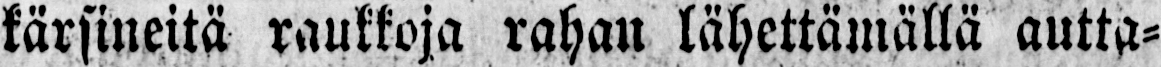kärsineitä raukkoja rahan lähettämättä autta-
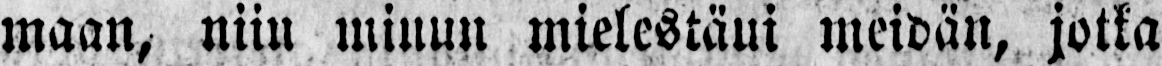maan, niin minun mielestäui meidän, jotka
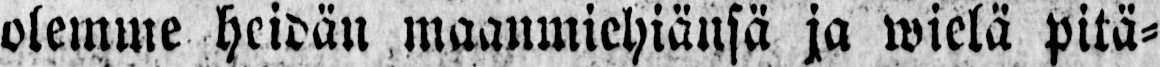olemme heidän maanmiehiänsä ja wielä pitä-
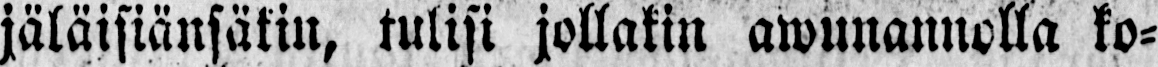jäläisiänsäkin, tulisi jollakin awunannolla ko-
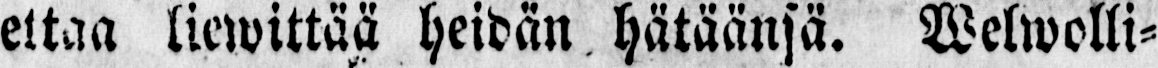ettaa liewittää heidän hätäänsä. Welwolli-
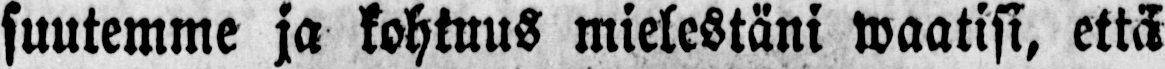suutemme ja kohtuus mielestäni waatisi, että
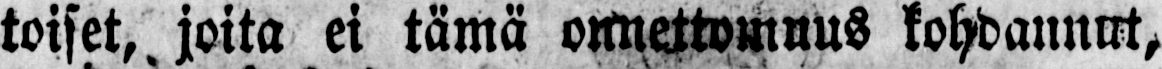toiset,, joita ei tämä onnettomuus kohdannut,
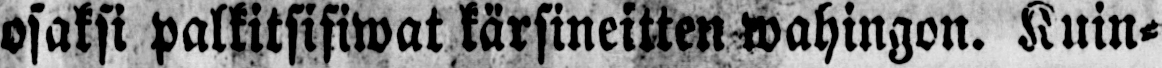osaksi palkitsisiwat kärsineitten wahingon. Kuin-
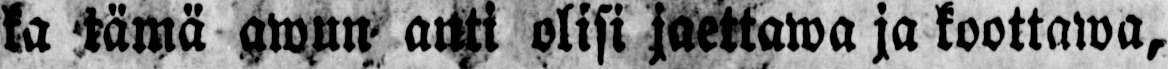ka tämä awun- anti olisi jaettawa ja koottawa,
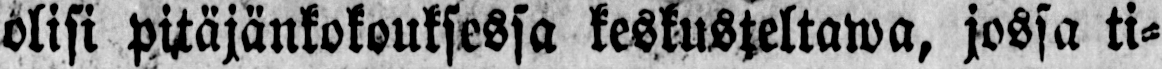olisi pitäjänkokouksessa keskusteltawa, jossa ti-
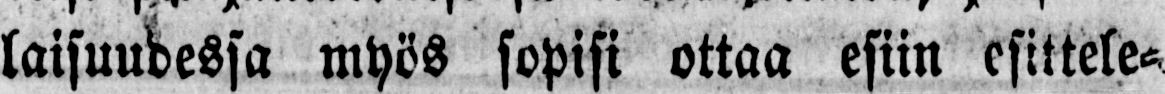laisuudessa myös sopisi ottaa esiin esittele-
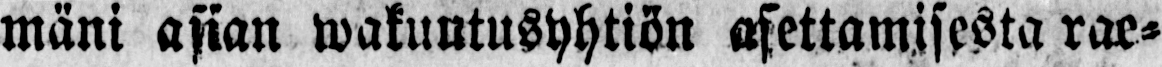mäni asian wakuutusyhtiön asettamisesta rae-
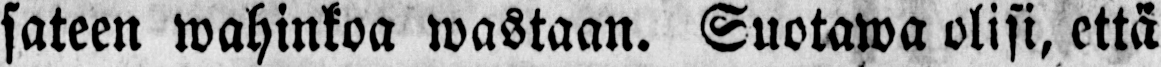sateen wahinkoa wastaan. Suotawa olisi, että
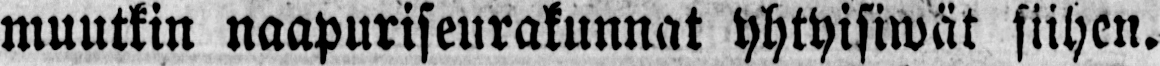muutkin naapuriseurakunnat yhtyisiwät siihen.
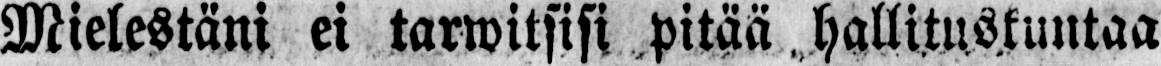Mielestäni ei tarwitsisi pitää hallituskuntaa
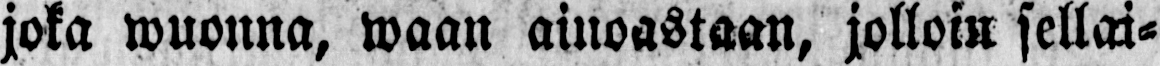joka wuonna, waan ainoastaan, jolloin sellai-
